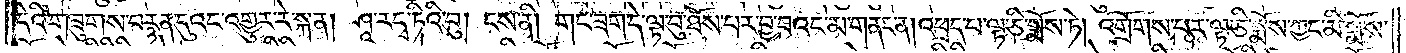དེའི་གཟུགས་བརྙན་དུའང་འགྱུར་རེ་སྐན། ཤཱ་ར་དྭ་ཏིའི་བུ། ངས་ནི། གང་ཟག་དེ་ལྟ་བུ་ཐོས་པར་བྱ་བའང་མ་གནང་ན། འཕྲད་པ་ལྟ་ཅི་སྨོས་ཏེ། འགྲོགས་པར་ལྟ་ཅི་སྨོས་ཀྱང་མི་སྨོས་
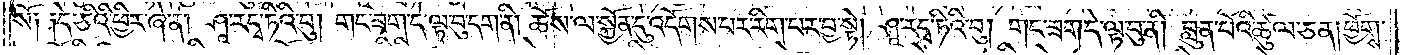སོ༑ ༑དེ་ཅིའི་ཕྱིར་ཞེ་ན། ཤཱ་ར་དྭ་ཏིའི་བུ། གང་ཟག་དེ་ལྟ་བུ་དག་ནི། ཆོས་ལ་སྐྱོན་དུ་འདོགས་པར་རིག་པར་བྱ་སྟེ། ཤཱ་ར་དྭ་ཏིའི་བུ། གང་ཟག་དེ་ལྟ་བུ་ནི། བླུན་པོའི་ཚུལ་ཅན། ཕྱོགས་
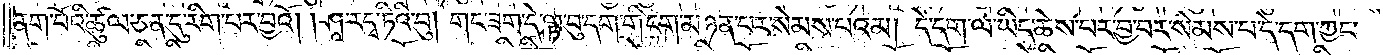ནག་པོའི་ཚུལ་ཅན་དུ་རིག་པར་བྱའོ། །ཤཱ་ར་དྭ་ཏིའི་བུ། གང་ཟག་དེ་ལྟ་བུ་དག་གི་ངག་མཉན་པར་སེམས་པའམ། དེ་དག་ལ་ཡིད་ཆེས་པར་བྱ་བར་སེམས་པ་དེ་དག་ཀྱང་
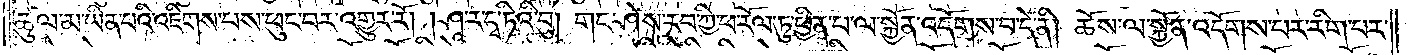ཚུལ་མ་ཡིན་པའི་འཇིག་པས་ཕུང་བར་འགྱུར་རོ། །ཤཱ་ར་དྭ་ཏིའི་བུ། གང་ཤེས་རབ་ཀྱི་ཕ་རོལ་ཏུ་ཕྱིན་པ་ལ་སྐྱོན་འདོགས་པ་དེ་ནི། ཆོས་ལ་སྐྱོན་འདོགས་པར་རིག་པར་
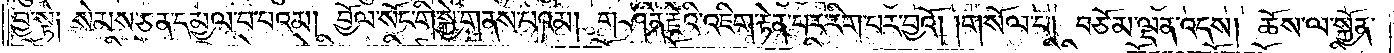བྱ་སྟེ༑ སེམས་ཅན་དམྱལ་བ་པའམ། བྱོལ་སོང་གི་སྐྱེ་གནས་པའམ། གཤིན་རྗེའི་འཇིག་རྟེན་པར་རིག་པར་བྱའོ། །གསོལ་པ། བཅོམ་ལྡན་འདས། ཆོས་ལ་སྐྱོན་
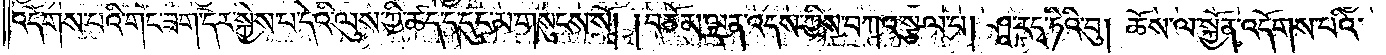འདོགས་པའི་གང་ཟག་དེར་སྐྱེས་པ་དེའི་ལུས་ཀྱི་ཚད་ད་དུང་མ་གསུངས་སོ། །བཅོམ་ལྡན་འདས་ཀྱིས་བཀའ་སྩལ་པ། ཤཱ་ར་དྭ་ཏིའི་བུ། ཆོས་ལ་སྐྱོན་འདོགས་པའི་
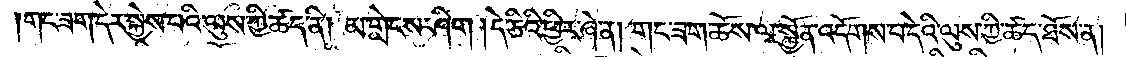གང་ཟག་དེར་སྐྱེས་པའི་ལུས་ཀྱི་ཚད་ནི། མ་གླེངས་ཤིག །དེ་ཅིའི་ཕྱིར་ཞེ་ན། གང་ཟག་ཆོས་ལ་སྐྱོན་འདོགས་པ་དེའི་ལུས་ཀྱི་ཚད་ཐོས་ན།
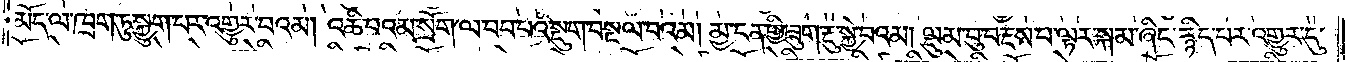མོད་ལ་ཁྲག་ཏུ་སྐྱུག་པར་འགྱུར་བའམ། འཆི་བའམ་སྲོག་ལ་བབ་པའི་སྡུག་བསྔལ་བའམ། མྱ་ངན་གྱི་ཟུག་རྔུ་སྐྱེ་བའམ། ལྡུམ་བུ་བརྡས་པ་ལྟར་སྐམ་ཤིང་རྙིད་པར་འགྱུར་དུ་
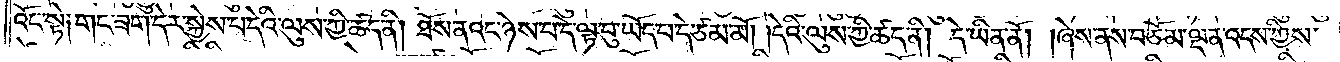འོང་སྟེ༑ གང་ཟག་དེར་སྐྱེས་པ་དེའི་ལུས་ཀྱི་ཚད་ནི། ཐོས་ནའང་ཉེས་པ་དེ་ལྟ་བུ་ཡོད་པ་དེ་ཙམ་མོ། །དེའི་ལུས་ཀྱི་ཚད་ནི། དེ་ཡིན་ནོ། །ཞེས་ནས་བཅོམ་ལྡན་འདས་ཀྱིས་
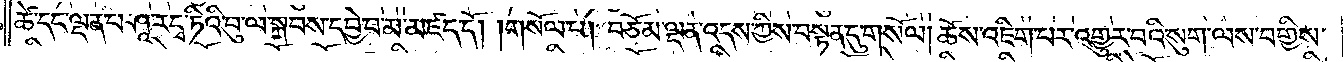ཚེ་དང་ལྡན་པ་ཤཱ་ར་དྭ་ཏིའི་བུ་ལ་སྐབས་དབྱེ་བ་མ་མཛད་དོ། །གསོལ་པ། བཅོམ་ལྡན་འདས་ཀྱིས་བསྟན་དུ་གསོལ། ཆོས་འཇིག་པར་འགྱུར་བའི་སུག་ལས་བགྱིས་
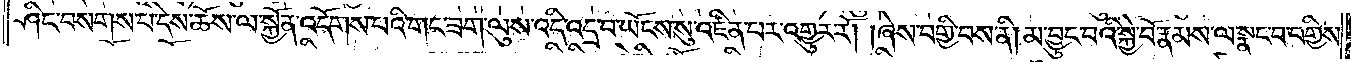ཤིང་བསགས་པ་དེས་ཆོས་ལ་སྐྱོན་འདོགས་པའི་གང་ཟག་ལུས་འདི་འདྲ་བ་ཡོངས་སུ་འཛིན་པར་འགྱུར་རོ། །ཞེས་བགྱི་བས་ནི། མ་བྱུང་བའི་སྐྱེ་བོ་རྣམས་ལ་སྣང་བ་བགྱིས་
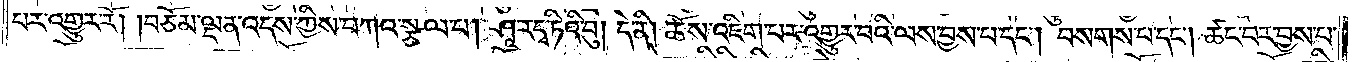པར་འགྱུར་རོ། །བཅོམ་ལྡན་འདས་ཀྱིས་བཀའ་སྩལ་པ། ཤཱ་ར་དྭ་ཏིའི་བུ། དེ་ནི། ཆོས་འཇིག་པར་འགྱུར་པའི་ལས་བྱས་པ་དང༌། བསགས་པ་དང༌། ཚང་བར་བྱས་པ་
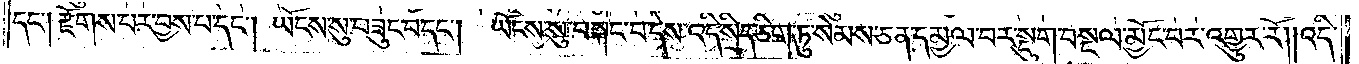དང༌། རྫོགས་པར་བྱས་པ་དང༌། ཡོངས་སུ་བཟུང་བ་དང༌། ཡོངས་སུ་བསྐང་བ་དེས་འདི་སྲིད་ཅིག་ཏུ་སེམས་ཅན་དམྱལ་བར་སྡུག་བསྔལ་མྱོང་བར་འགྱུར་རོ། །འདི་
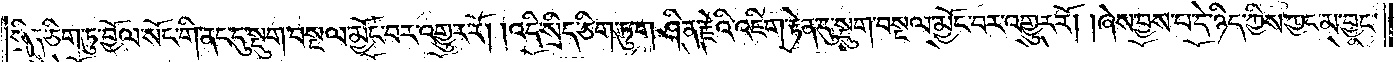སྲིད་ཅིག་ཏུ་བྱོལ་སོང་གི་ནང་དུ་སྡུག་བསྔལ་མྱོང་བར་འགྱུར་རོ། །འདི་སྲིད་ཅིག་ཏུ་གཤིན་རྗེའི་འཇིག་རྟེན་དུ་སྡུག་བསྔལ་མྱོང་བར་འགྱུར་རོ། །ཞེས་བྱས་པ་དེ་ཉིད་ཀྱིས་ཀྱང་མ་བྱུང་
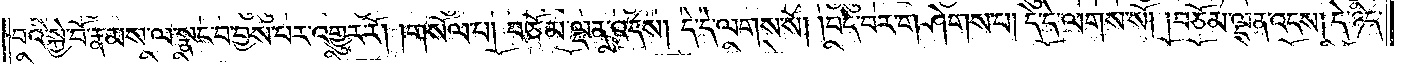བའི་སྐྱེ་བོ་རྣམས་ལ་སྣང་བ་བྱས་པར་འགྱུར་རོ། །གསོལ་པ། བཅོམ་ལྡན་འདས། དེ་དེ་ལགས་སོ། །བདེ་བར་གཤེགས་པ། དེ་དེ་ལགས་སོ། །བཅོམ་ལྡན་འདས། དེ་ཉིད་
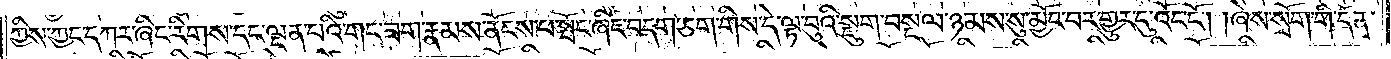ཀྱིས་ཀྱང་དཀར་ཞིང་རིགས་དང་ལྡན་པའི་གང་ཟག་རྣམས་ནོངས་པ་སྤོང་ཞིང་བདག་ཅག་གིས་དེ་ལྟ་བུའི་སྡུག་བསྔལ་ཉམས་སུ་མྱོང་བར་གྱུར་དུ་འོང་ངོ༌། །ཞེས་སྲོག་གི་དོན་
